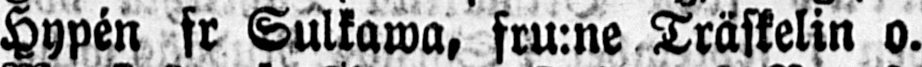Hypén fr Sulkawa, fru:ne Träskelin o.
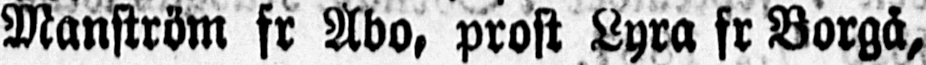Manström fr Abo, prost Lyra fr Borgå,
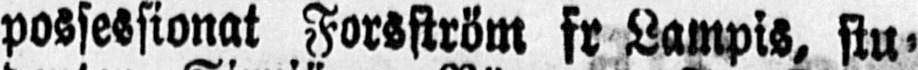possessionat Forsström fr Lampis, stu-
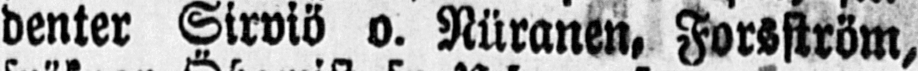denter Sirviö o. Niiranen, Forsström,
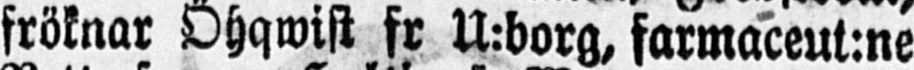fröknar Öhqwist fr U:borg, farmaceut:ne
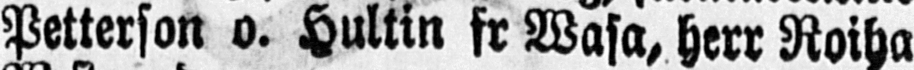Petterson o. Hultin fr Wasa, herr Roiha
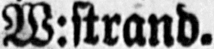W:strand.
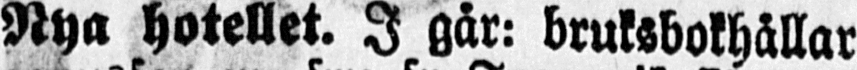Nya hotellet. I går: bruksbokhållar
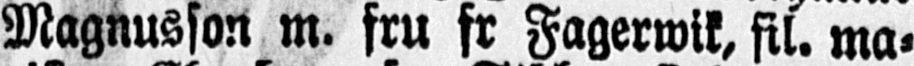Magnusson m. fru fr Fagerwik, fil. ma-
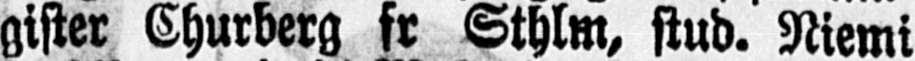gister Churberg fr Sthlm, stud. Niemi
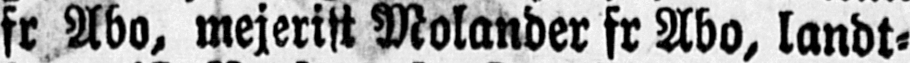fr Abo, mejerist Molander fr Abo, landt-
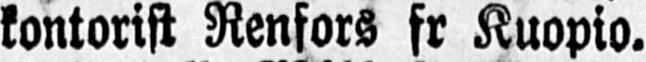kontorist Renfors fr Kuopio.
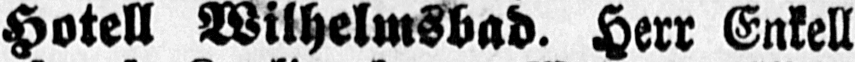Hotell Wilhelmsbad. Herr Enkell
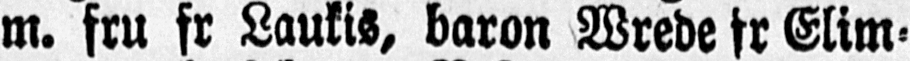m. fru fr Laukis, baron Wrede fr Elim-
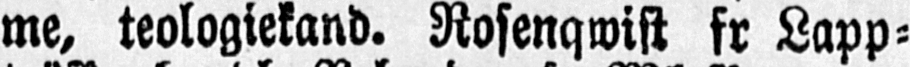me, teologiekand. Rosenqwist fr Lapp-
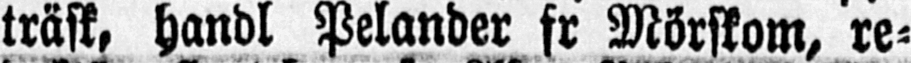träsk, handl Pelander fr Mörskom, re-
